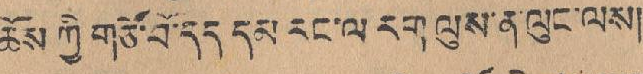ཆོས་ཀྱི གཙོ་བོ་དད དམ་རང་ལ རག ལུས་ན་ལུང་ལས།
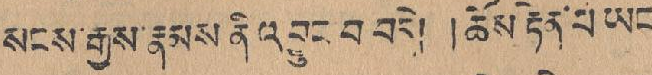སངས་རྒྱས་རྣམས ནི་འབྱུང་བ བདེ། ཆོས་རྟེན་པ ཡང་
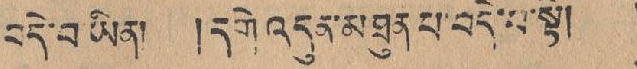བདེ་བ་ཡིན། །དགེ་འདུན་མཐུན་པ་བདེ་བ་སྟེ། །
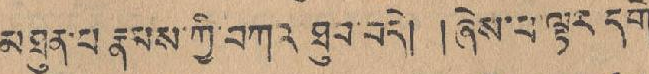མཐུན་པ རྣམས་ཀྱི་བཀའ ཐུབ་བདེ། །ཞེས་པ་ལྟར དགེ
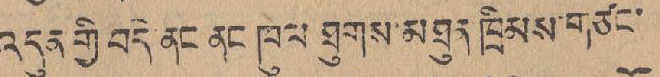འདུན་གྱི་བདེ་ནང ནང ཁུལ་ཐུགས་མཐུན ཁྲིམས་གཙང་
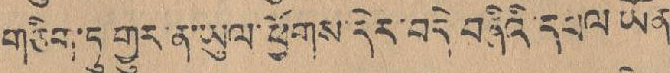གཅིག་ཏུ གྱུར་ན་ཡུལ་ཕྱོགས་དེར བཞིའི་དཔལ ཡོན
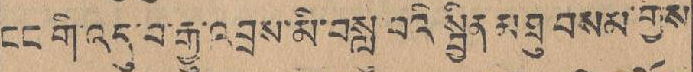ངང གི་འདུ་བ་རྒྱུ་འབྲས་མི་བསླུ་བའི སྦྱིན་མཐུ བསམ་གྱིས་
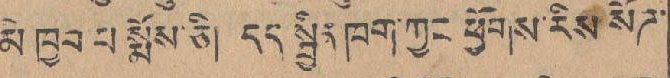མི ཁྱབ པ སྨོས་ཅི། དད་སྤྱིན་ཁག་ཀྱང ཕྱོགས་རིས་སོཊ་
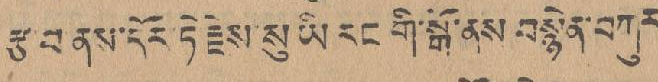རྩ་བ ནས་དོར་ཏེ་རྗེས་སུ་ཡི རང གི་སྒོ་ནས བསྙེན་བཀུར་
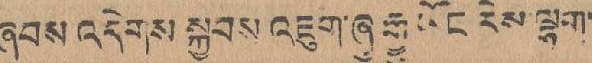ཞབས་འདེགས་སྐྱབས་འཇིག་ཞུ་རྒྱུ ཡོང་རེས ལྷག་
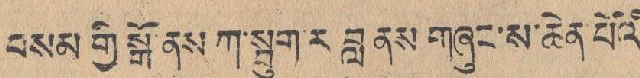བསམ་གྱི སྒོ ནས ཀ་སྦུག་ར བླ ནས་གཞུང་ས་ཆེན་པོའི་
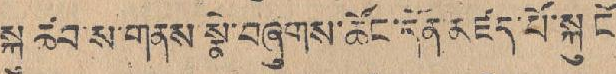སྐུ ཚབ་ས་གནས་སྣེ་བཞུགས་ཚོང་དོན་མཛད་པོ་སྐུ ངོ་
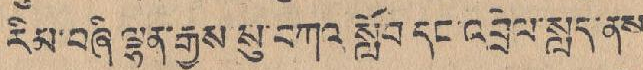རིམ་བཞི་ལྷན་རྒྱས་སུ་བཀའ་སློབ་དང་འབྲེལ་སླད་ནས་
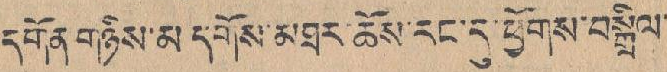དགོན གཉིས་མ དགོས་མཐར་ཆོས་རང་དུ་ཕྱོགས་བསྒྲིལ་
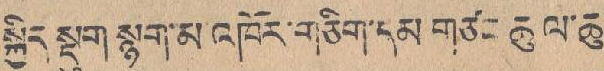སྐྱིད་སྡུག སྙུག་མ་འཁོར་གཅིག་དམ་གཙང ཆུ ལ་ཆུ་
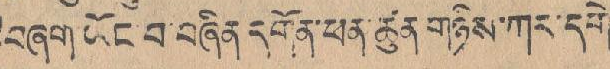།བཞག་ཡོང་བ་བཞིན་དགོན་ཕན་ཚུན་གཉིས་ཀར་དགེ་
